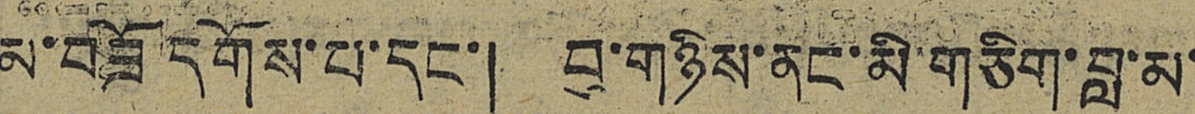མ་བཟོ་དགོས་པ་དང་། བུ་གཉིས་ནང་མི་གཅིག་བླ་མ་
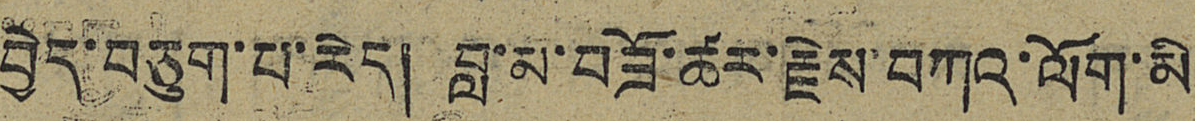བྱེད་བཅུག་པ་རེད། བླ་མ་བཟོ་ཚར་རྗེས་བཀའ་ལོག་མི
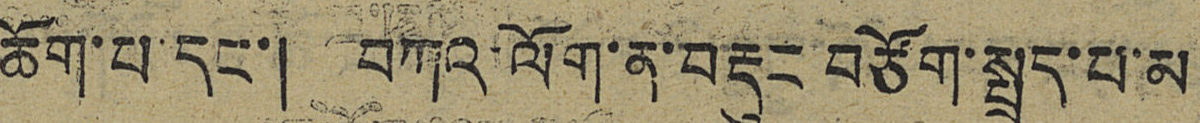ཆོག་པ་དང་། བཀའ་ལོག་ན་བརྡུང བཙོག་སྤྲད་པ་མ
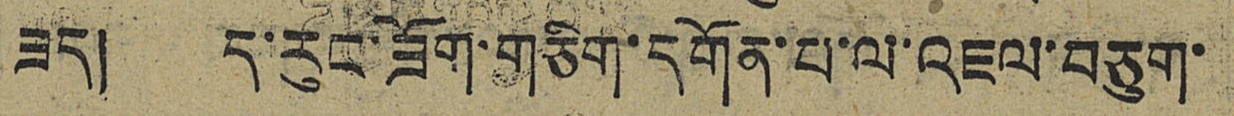ཟད། ད་རུང་ཟོག་གཅིག་དགོན་པ་ལ་འཇལ་བཅུག་
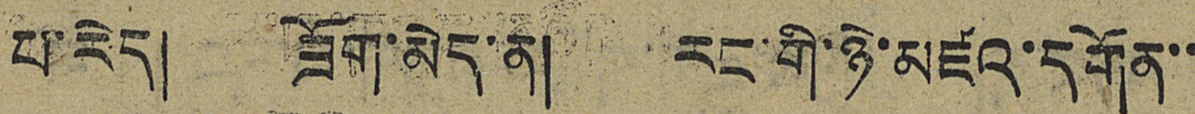པ་རེད། ཟོག་མེད་ན། རང་གི་ཉེ་མཛའ་དགོན་་
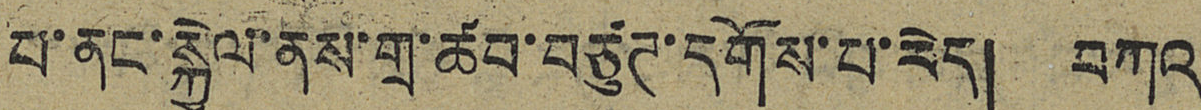པ་ནང་སྐྱེལ་ནས་གྲ་ཚབ་བཙུཊ་དགོས་པ་རེད། བཀའ
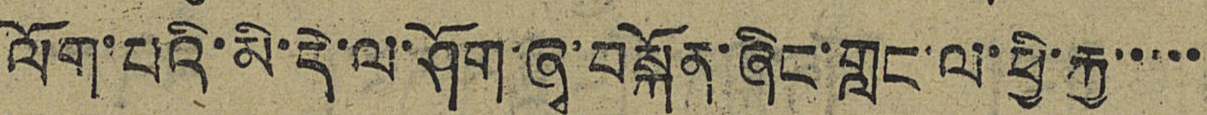ལོག་པའི་མི་དེ་ལ་ཤོག་ཞྭ་བསྐོན་ཞིང་གླང་ལ་ཕྱི་རྐྱ་་་་་
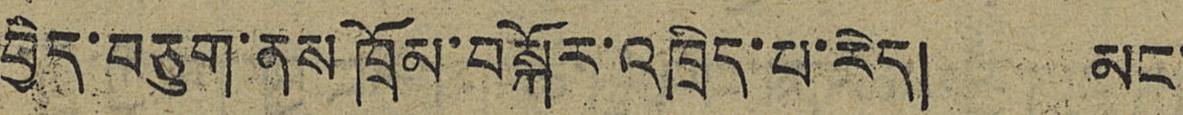བྱེད་བཅུག་ནས་ཁྲོམ་བསྐོར་འཁྲིད་པ་རེད། མང་
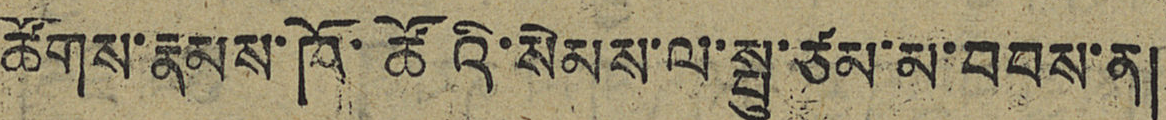ཚོགས་རྣམས་ཁོ་ཚོའི་སེམས་ལ་སྤུ་ཙམ་མ་བབས་ན།
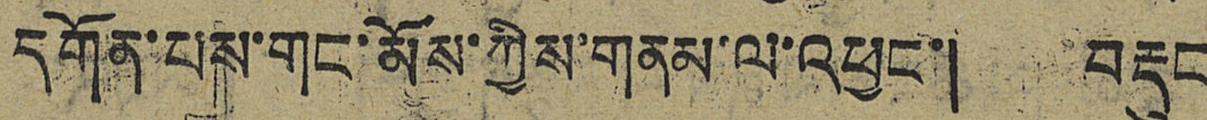དགོན་པས་གང་མོས་ཀྱིས་གནམ་ལ་འཕྱང་། བརྡུང
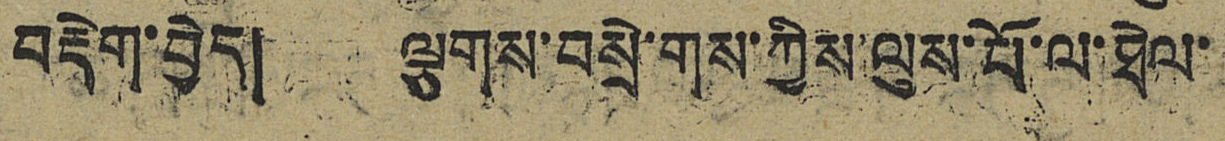བརྡེག་བྱེད། ལྕགས་བསྲེ་གས་ཀྱིས་ལུས་པོ་ལ་ཐེལ་
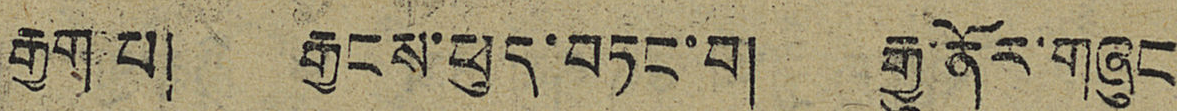རྒྱག་པ། རྒྱངས་ཕུད་བཏང་བ། རྒྱུ་ནོར་གཞུང
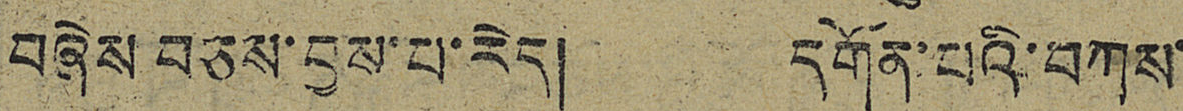བཞེས་བཅས་བྱས་པ་རེད། དགོན་པའི་བཀས་
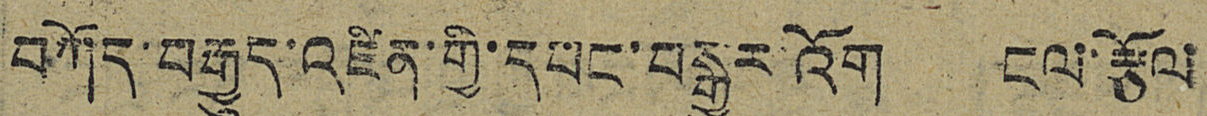བཀོད་བརྒྱུད་འཛིན་གྱི་དཔང་བསྒྱུར་འོག ངལ་རྩོལ
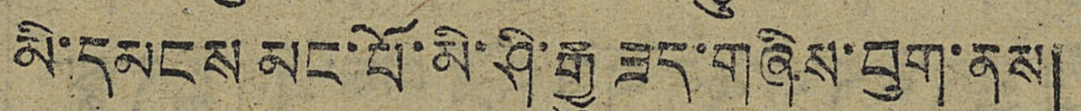མི་དམངས མང་པོ་མི་ཤི་རྒྱུ ཟད་གཞིས་བུག་ནས།
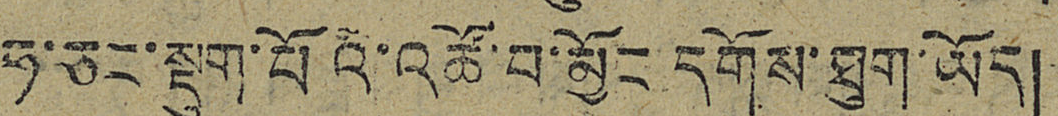ཧ་ཅང་སྡུག་པོའི་འཚོ་བ་མྱོང དགོས་ཐུག་ཡོད།
